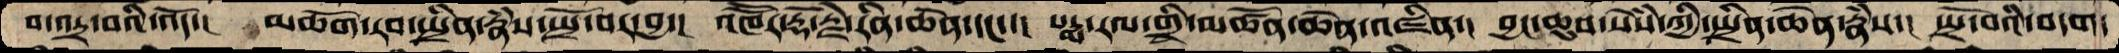བ་འདྲ་བའི་འོད་།  མཆོག་རབ་སྤྲིན་རྣཾས་སྤྲོ་བར་བྱ་།  འཁཽར་རྡོ་རྗེ་རིན་ཆེན་དང་་།  པདྨ་རལ་གྲི་མཚོན་ཆེན་འཛིན་།  བྱང་ཆུབ་སེཾས་ཀྱི་སྤྲིན་ཆེན་རྣཾས་།  སྤྲོ་བའི་བདག་
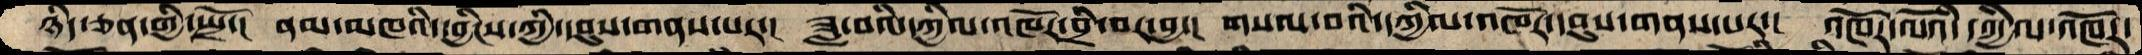ཉིད་ཅན་གྱི་སྤྲོ་།  ནམ་མཁའི་དབྱིངས་ཀྱི་དབུས་གནས་པར་།  ཟླ་བའི་དཀྱིལ་འཁོར་བྲི་བར་བྱ་།  གསལ་བའི་དཀྱིལ་འཁོར་དབུས་གནས་པར་།  འཁོར་ལོའི་དཀྱིལ་འཁོར་
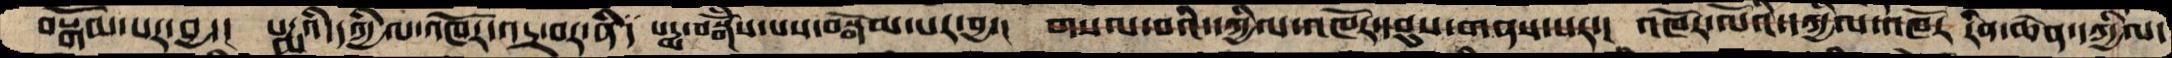བསྒོམ་པར་བྱ་།  པདྨའིདཀྱིལ་འཁོར་འདྲ་བར་ནི།  པདྨ་བསྒོཾས་པས་བསྒོམ་པར་བྱ་།  གསལ་བའི་དཀྱིལ་འཁོར་དབུས་གནས་པར་།  འཁོར་ལོའི་དཀྱིལ་འཁོར རིན་ཆེན་དཀྱིལ་།
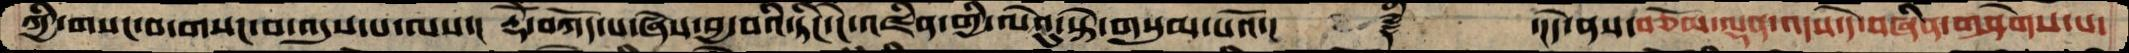ཀྱི་གསང་བ་གསང་བ་འདུས་པ་ལས་།  རྡོེ་བཀོད་པ་ཞེས་བྱ་བའི་ཏིང་ངེ་འཛིན་གྱི་ལེའུ་སྟེ་གསུམ་པའོ་།  ༈ི  ་།དེ་ནས་བཅོམ་ལྡན་འདས་དེ་བཞིན་གཤེགས་པ་
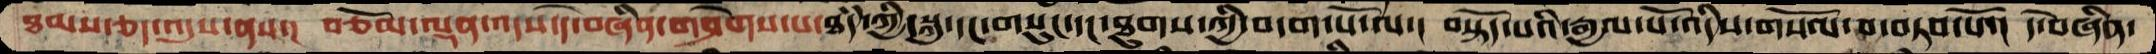ཐམས་ཅད་འདུས་ནས་།  བཅོམ་ལྡན་འདས་དེ་བཞིན་ཤེགས་པ་ཐཾད་ཀྱི་སྐུ་དང་གསུང་དང་ཐུགས་ཀྱི་བདག་པོ་ལ་།  བསྟོད་པའི་རྒྱལ་པོ་འདིས་གསོལ་བ་བཏབ་པོ་།  དེ་བཞིན་
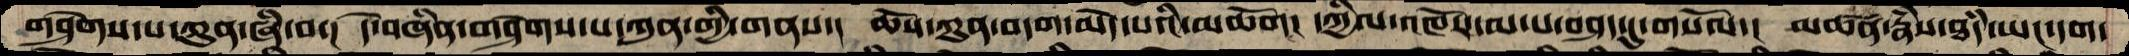གཤེགས་པ་ཀུན་ཞི་བ་།  དེ་བཞིན་གཤེགས་པ་ཀུན་གྱི་གནས་།  ཆོས་ཀུན་བདག་མེད་པའི་མཆོག།  དཀྱིལ་འཁོར་དམ་པ་བཤད་དུ་གསོལ་། མཚན་རྣཾས་ཐཾད་ཡང་དག་
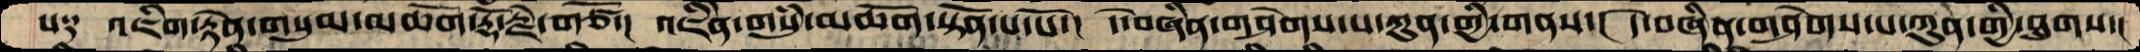པ༑  འཇིག་རྟེན་གསུམ་མཆོག་རྡོ་རྗེ་གཙོ་།  འཛིནེ་གསུཾ་མཆོག་སྟོན་པ་པོ་།  དེ་བཞིན་གཤེགས་པ་ཀུན་གྱི་གནས་།  དེ་བཞིན་གཤེགས་པ་ཀུན་གྱི་ཐུགས་།
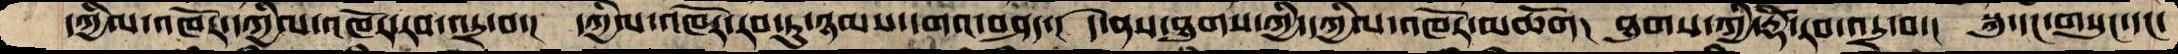དཀྱིལ་འཁོར་དཀྱིལ་འཁོར་རབ་འདྲ་བ་།  དཀྱིལ་འཁོར་རབ་ཏུ་ཉམས་དགའ་བཤད་།  དེ་ནས་ཐུགས་ཀྱི་དཀྱིལ་འཁོར་མཆོག།  ཐུགས་ཀྱི་རྡོེ་རབ་འདྲ་བ་།  སྐུ་དང་གསུང་དང་
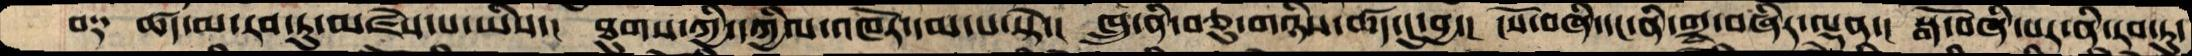བ༑  ཚད་མ་རབ་ཏུ་མཛེས་པ་ཡིས་།  ཐུགས་ཀྱི་དཀྱིལ་འཁོར་དམ་པ་སྟེ་།  ཁྲུ་ནི་བཅུ་གཉིས་ཚད་དུ་བྱ་།  ངོས་བཞི་དང་ནི་གྲྭ་བཞིར་ལྡན་།  སྒོ་བཞི་པར་ནི་རབ་ཏུ་
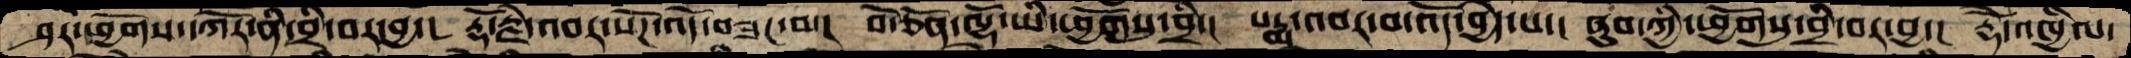ཤར་ཕྱོགས་དཀོར་ནི་བྲི་བར་བྱ་།   རྡོ་རྗེ་འབར་སོཌ་འོད་བཟང་བ་།  བེ་ཅོན་ལྷོ་ཡི་ཕྱོགསུ་བྲི་།  པདྨ་འབར་བ་འདོ་བྱེད་པ་།  ནུབ་ཀྱི་ཕྱོགསུ་བྲི་བར་བྱ་།  རྡོེ་འཁྱིལ་
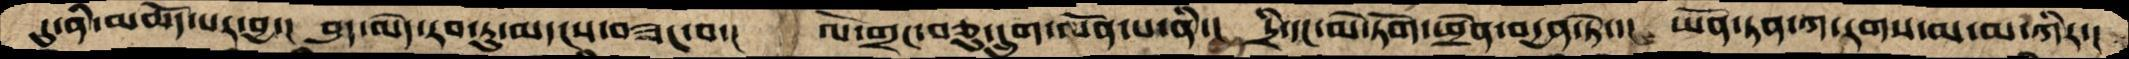དུ་ནི་མཆོད་པར་བྱ་།  བུད་མེད་རབ་ཏུ་མདངས་བཟང་བ་།  ལོ་གྲང་བཅུ་དྲུག་ལོན་པ་ནི་།  དྲི་དང་མེ་ཏོག་ཕྲེན་བདྱན་ཏེ་།  ཡོན་ཏན་ཀ་རགས་མ་མ་ཀིར་།
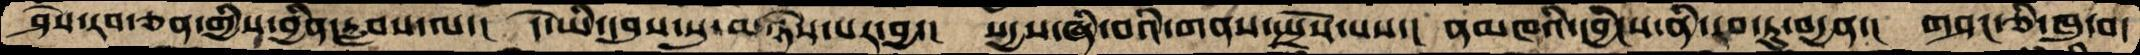ཤེས་རབ་ཅན་གྱིས་བྱིན་རླབས་ལ་།  དེ་ཡི་དབུས་སུ་མཉེས་པར་བྱ་།  སདྱས་ཞི་བའི་གནས་སྤྲོས་པས་།  ནམཁའི་དབྱིངས་ནི་རབ་ཏུ་བདྱན་།  གཤང་ཅི་ཁུ་བ་
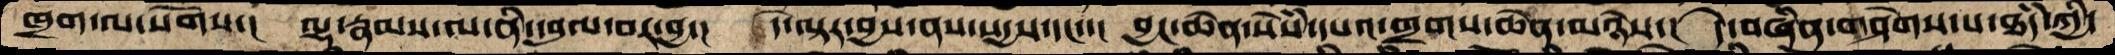ཁྲག་ལ་སོགས་།  ལྷ་རྣམས་ལ་ནི་དབུལ་བར་བྱ་།  དེ་ལྟར་བྱས་ནས་སདྱས་དང་་།  བྱང་ཆེན་སེཾས་དཔའ་གྲགས་ཆེན་མཉེས་།  དེ་བཞིན་གཤེགས་པ་ཐཾད་ཀྱི་
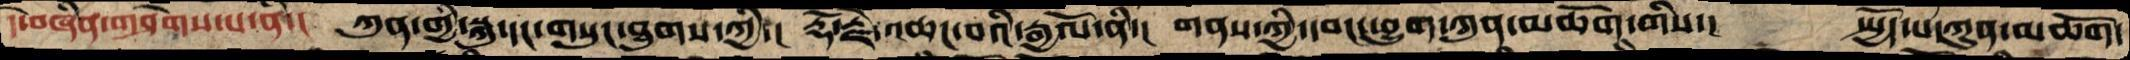དེ་བཞིན་གཤེགས་པ་ནི་།  ཀུན་གྱི་སྐུ་དང་གསུང་ཐུགས་ཀྱི་།  རྡོ་རྗེ་འཆང་བའི་རྒྱལོ་ནི་།  གནས་ཀྱི་དབང་ཕྱུག་ཀུན་མཆོག་གིས་།  སྤྱོད་པ་ཀུན་མཆོག་
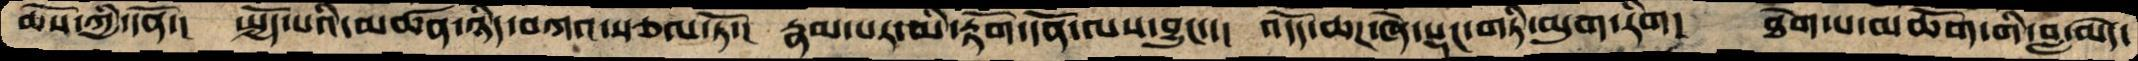ཆོས་ཀྱི་དོན་།  སྤྱོད་པའི་མཚན་ཉིད་བཀའ་སྩལ་ཏོ་།  རྣམ་པར་མི་རྟོག་དོན་ལས་བྱུང་་།  འདོད་ཆཌ་ཞེ་སྡང་གཏི་མུག་རིག།  ཐེག་པ་མཆོག་གི་བླ་མེད་
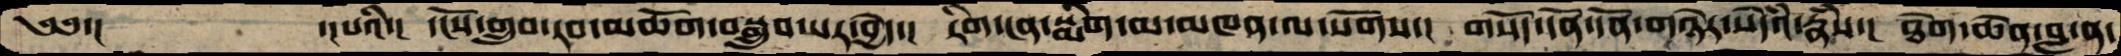༄༅་།        ་།པའི་།  དངོས་གྲུབ་རབ་མཆོག་བསྒྲུབ་པར་བྱེད་།  རིག་ངན་སྨིག་མ་མཁན་ལ་སོགས་།  གསོད་དོན་དོན་གཉེར་སེཾདའ་རྣཾས་།  ཐེག་ཆེན་བླ་ན་
